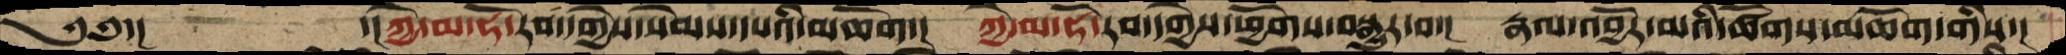༄༅་།           ་།ཀྱེ་མ་ཧོ་རབ་དགྱེས་སེམས་དཔའི་མཆོག་།  ཀྱེ་མ་ཧོ་རབ་དགྱེས་ཕྱོགས་བསྒྱུར་བ་།  རྣལ་འབྱོར་མའི་ཚོགས་མཆོག་གིས་།
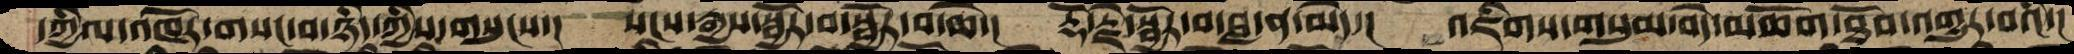དཀྱིལ་འཁོར་གསང་བ་ཉིད་ཀྱིས་གསུངས་།  སངས་རྒྱས་སྦྱོར་བ་སྦྱོར་བ་ཆེ་།  རྡོ་རྗེ་སྦྱོར་བ་བླ་ན་མེད་།  འཇིགས་གསུམ་བདེ་མཆོག་ཐོབ་འགྱུར་བའི་།
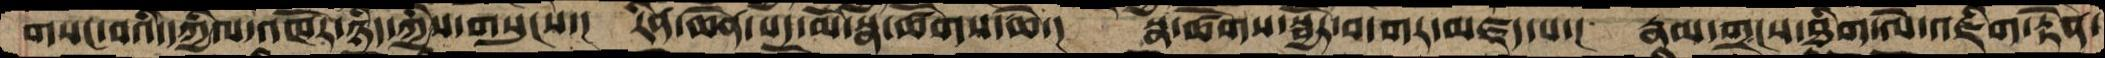གསང་བའི་དཀྱིལ་འཁོར་ཉིད་ཀྱིས་གསུངས་།  རིན་ཆེན་པད་མོ་སྣ་ཚོགས་ཆེ་།  སྣ་ཚོགས་སྦྱོར་བ་གར་མཛད་པ་།  རྣམ་གྲངས་ཐིག་ལེ་འཇིག་རྟེན་
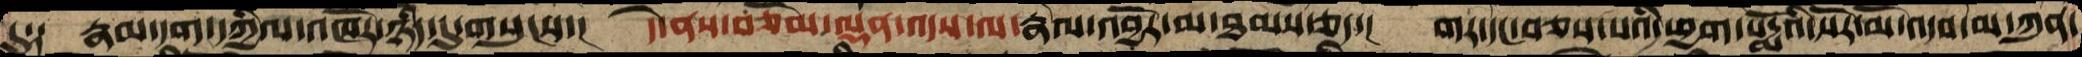དུ༑   རྣམ་དག་དཀྱིལ་འཁོར་ཉིད་དུ་གསུངས་།  དེ་ནས་བཅོམ་ལྡན་འདས་ལ་རྣལ་འབྱོར་མ་ཐམས་ཅད་།  གར་དང་བཅས་པའི་ཕྱག་པདྨོའི་སོར་མོ་འདབ་མ་ཀུན་
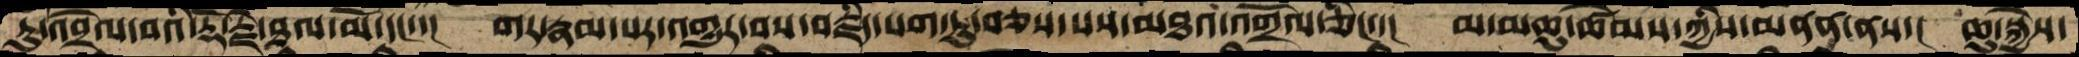ཏུ་འབྲེལ་བའི་རྡོ་རྗེ་ཐལ་མོ་དང་་།  གར་རྣམ་པར་འགྱུར་བས་བརྗིད་དཔག་ཏུ་བཅས་པས་མཐའ་འགྲོལ་ཅིང་་།  མ་མཆུ་ཚེམས་ཀྱིས་མནན་ནས་།  ཆུ་སྐྱེས་
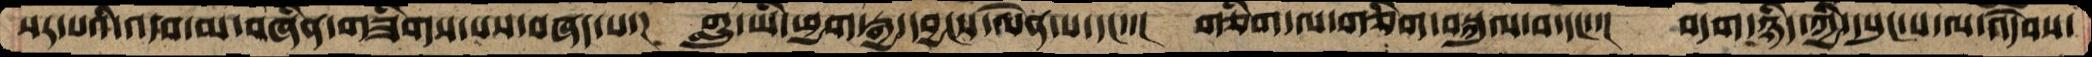སར་པའི་འདབ་མ་བཞིན་གཟིགས་པས་བཞད་པ་།  གླུ་ཡི་ཕྱག་རྒྱ་དབྱངས་ལེན་པ་དང་་།  གཅིག་ལ་གཅིག་བསྐུལ་བ་དང་་།  བདག་ཉིད་ཀྱི་དཔུང་པ་ལ་འདེབས་
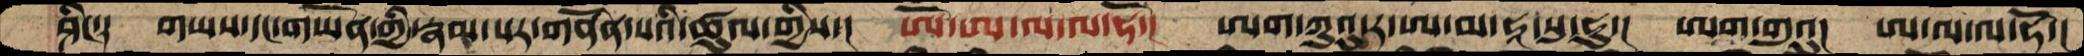ཤིང༑   གཡས་དང་གཡོན་གྱི་རྣམ་པར་གནོན་པའི་ཚུལ་གྱིས་།   ཨོ་ཨ་ལ་ལ་ཧོ་།  ཨག་ཀུའུ་ར་ཨ་མ་ཧཱ་སུ་ཧུ་།  ཨག་གུའུ།  ཨ་ལ་ལ་ཧོ་།
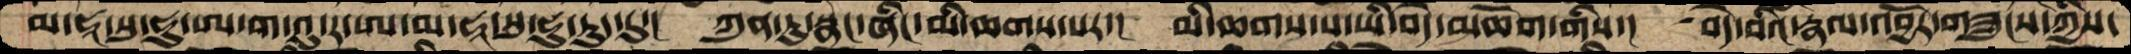མ་ཧཱ་སུ་ཧུ་ཨ་ག་འུ་ར་ཨ་མ་ཧཱ་སུ་ཧུ་རུད་དུ་།   ཀུན་ཏུ་སྣང་ཞིང་མི་ཆགས་པར་།  མི་ཆགས་པ་ཡི་བདེ་མཆོག་གིས་།  བདེ་བའི་རྣལ་འབྱོར་གཟུངས་ཀྱིས་
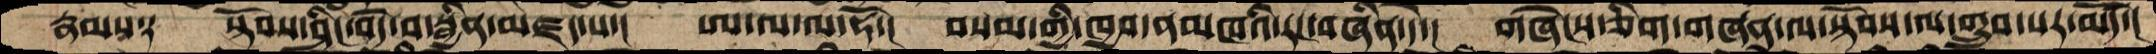རྣམས༑   སྟོབས་ཤིང་བདེ་བ་སྦྱིན་མཛད་པ་།   ཨ་ལ་ལ་ཧོ་།  བསམ་གྱི་ཁྱབ་ནམཁའི་རང་བཞིན་དེ་།  གཞེངས་ཅིག་གཞན་ལ་སྟོབས་ལ་གྲུབ་པར་མཛོད་།
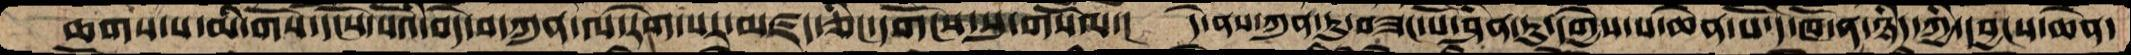ཆགས་པ་མི་གོས་དངོས་པོའི་བདེ་བ་ཀུན་ལ་རེག་པར་མཛད་ཅིང་དགོངས་སུ་གསོལ་།  དེ་ནས་ཀུན་ཏུ་བཟང་པོ་ཤིན་ཏུ་དགྱེས་པ་ཆེན་པོ་དེ་ཁོ་ན་ཉིད་ཀྱི་དབྱངས་ཆེན་
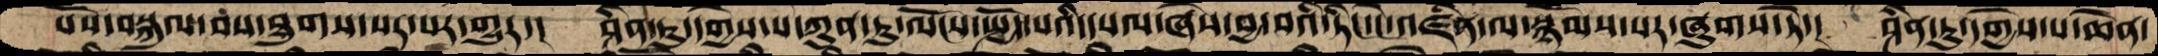པོས་བསྐུལ་བས་ཐུགས་སར་པར་གྱུར་།  ཤིན་ཏུ་དགྱེས་པ་ཀུན་ཏུ་ལོངས་སྤྱོད་པའི་དཔལ་ཞེས་བྱ་བའི་ཏིང་ངེ་འཛིན་ལ་སྙོམས་པར་ཞུགས་ཏེ་།   ཤིན་ཏུ་དགྱེས་པ་ཆེན་
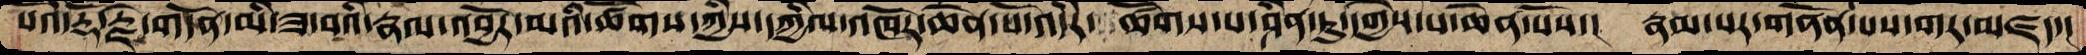པའི་རྡོ་རྗེ་གདོད་མི་ཟ་བའི་རྣལ་འབྱོར་མའི་ཚོགས་ཀྱིས་དཀྱིལ་འཁོར་ཆེན་པོ་འདིར་ ཚོགས་པ་ཤིན་ཏུ་དགྱེས་པ་ཆེན་པོས་།  རྣམ་པར་གནོན་པས་གར་མཛད་།
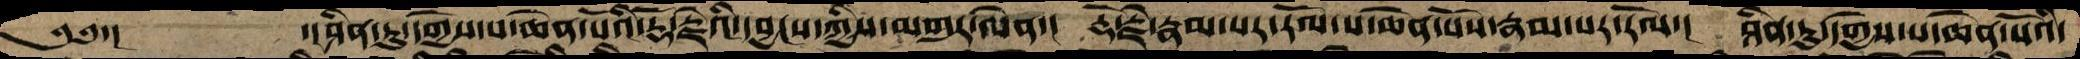༄༅་།      ་།ཤིན་ཏུ་དགྱེས་པ་ཆེན་པོའི་རྡོ་རྗེའི་དབྱངས་ཀྱིས་མགུར་ལེན་།   རྡོ་རྗེ་རྣམ་པར་རོལ་པ་ཆེན་པོས་རྣམ་པར་རོལ་།  ཤིན་ཏུ་དགྱེས་པ་ཆེན་པོའི་
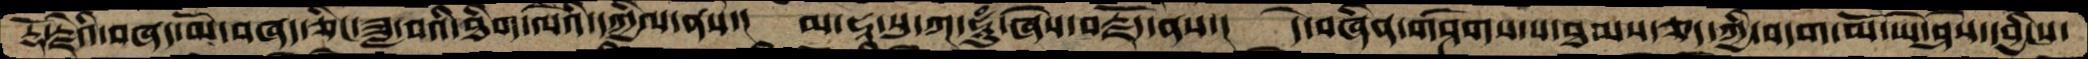རྡོ་རྗེའི་བཞད་མོ་བཞད་ཅིང་ཟླ་བའི་ཐིག་ལེའི་དཀྱིལ་ནས་།  མ་ཧཱ་སུ་ཀ་ཧཱུཾ་ཞེས་བརྗོད་ནས་།  དེ་བཞིན་གཤེགས་པ་ཐམས་ཅད་ཀྱི་བདག་མོ་ཡེ་ཤེས་དབྱིངས་
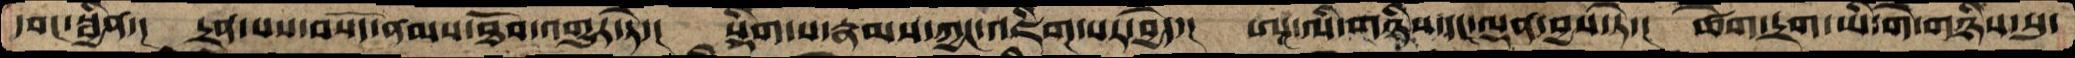དབང་སྦྱིན་།   དྲན་པས་བསོད་ནམས་ཐོབ་འགྱུར་ཏེ་།  སྡིག་པ་རྣམས་ཀྱང་འཇིག་པར་བྱེད་།  ཨཱ་ལི་གཉིས་དང་ལྡན་བྱས་ཏེ་།  ཚེག་དྲག་ཡི་གེ་གཉིས་སུ་
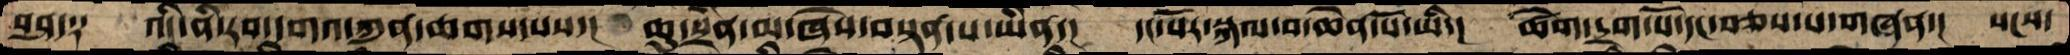བཤད༑   འདི་ནི་རབ་དགའ་ཀུན་ཆགས་པས་།  ཆུ་སྲིན་མ་ཞེས་བསྟན་པ་ཡིན་།  དང་པོར་སྐལ་བ་ཆེན་པོ་ཡི་།  ཚེག་དྲག་པོ་དང་བཅས་པ་གཞན་།  སངས་
